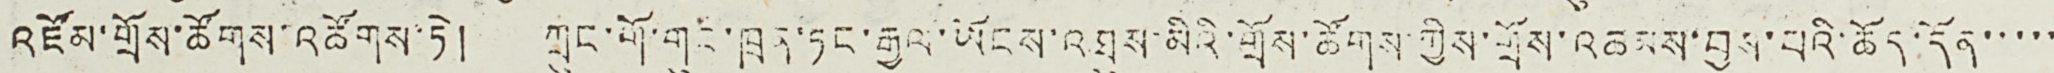འཛོམ་གྲོས་ཚོགས་འཚོགས་ཏེ། ཀྲུང་གོ་གུང་ཁྲན་ཏང་རྒྱལ་ཡོངས་འཐུས་མིའི་གྲོས་ཚོགས་ཀྱིས་གྲོས་འཆམས་བྱས་པའི་ཆོད་དོན་་་་་
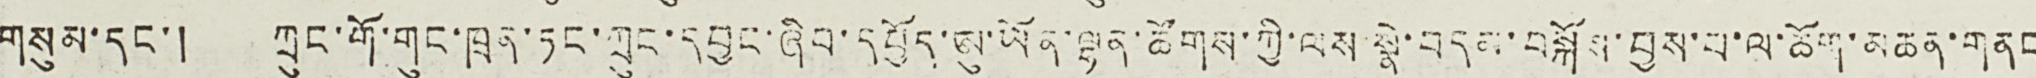གསུམ་དང་། ཀྲུང་གོ་གུང་ཁྲན་ཏང་ཀྲུང་དབྱང་ཞིབ་དཔྱོད་ཨུ་ཡོན་ལྷན་ཚོགས་ཀྱི་ལས་སྣེ་བདམ་བསྐོས་བྱས་པ་ལ་ཆོག་མཆན་གནང
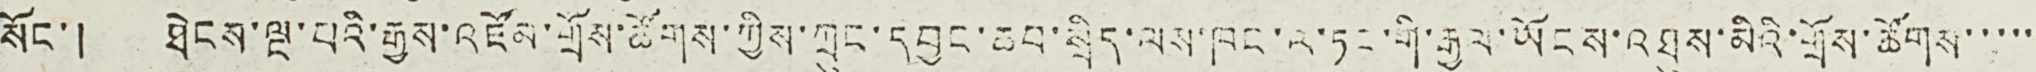སོང་། ཐེངས་ལྔ་པའི་རྒྱས་འཛོམ་གྲོས་ཚོགས་ཀྱིས་ཀྲུང་དབྱང་ཆབ་སྲིད་ལས་ཁང་ལ་ཏང་གི་རྒྱལ་ཡོངས་འཐུས་མིའི་གྲོས་ཚོགས་་་་་་
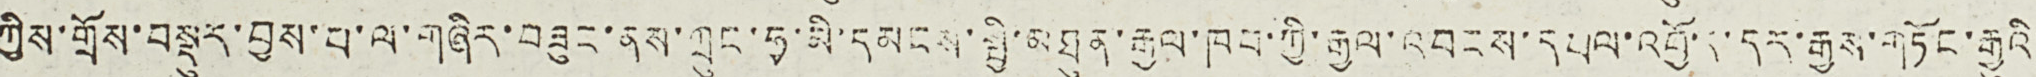ཀྱིས་གྲོས་བསྡུར་བྱས་པ་ལ་གཞིར་བཟུང་ནས་ཀྲུང་ཧྭ་མི་དམངས་སྤྱི་མཐུན་རྒྱལ་ཁབ་ཀྱི་རྒྱལ་འབངས་དཔལ་འབྱོར་དར་རྒྱས་གཏོང་རྒྱུའི་
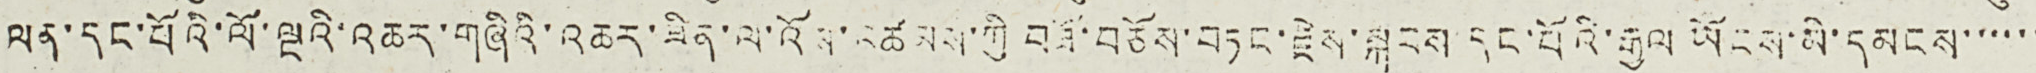ལན་དང་པོའི་ལོ་ལྔའི་འཆར་གཞིའི་འཆར་ཟིན་ལ་འོས་འཚམས་ཀྱི བཟོ་བཅོས་བཏང་རྗེས་སྐབས དང་པོའི་རྒྱལ ཡོངས་མི་དམངས་་་་་་
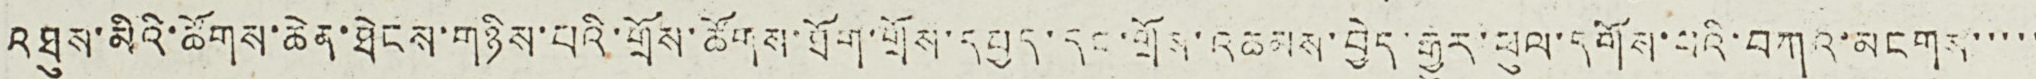འཐུས་མིའི་ཚོགས་ཆེན་ཐེངས་གཉིས་པའི་གྲོས་ཚོགས་ཐོག་གྲོས་དཔྱད་དང་གྲོས་འཆམས་བྱེད་རྒྱུར་ཕུལ་དགོས་པའི་བཀའ་མངགས་་་་་
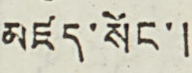མཛད་སོང་།
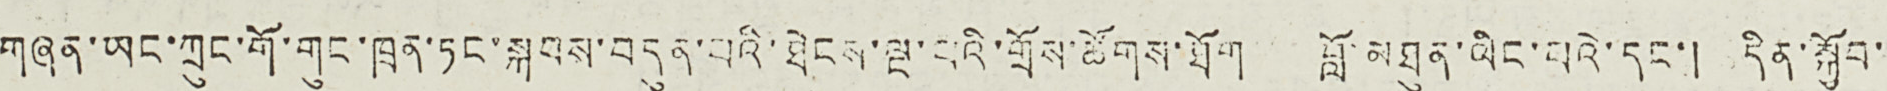གཞན་ཡང་ཀྲུང་གོ་གུང་ཁྲན་ཏང་སྐབས་བདུན་པའི་ཐེངས་ལྔ་པའི་གྲོས་ཚོགས་ཐོག བློ་མཐུན་ལིང་པའི་དང་། དིན་སྐྱོབ་་
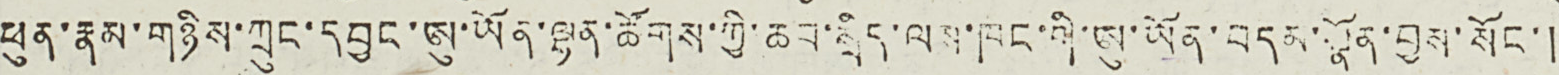ཕུན་རྣམ་གཉིས་ཀྲུང་དབྱང་ཨུ་ཡོན་ལྷན་ཚོགས་ཀྱི་ཆབ་སྲིད་ལས་ཁང་གི་ཨུ་ཡོན་བདམ་སྣོན་བྱས་སོང་།
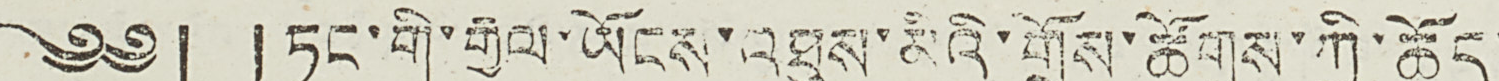༄༅། ། ཏང་གི་རྒྱལ་ཡོངས་འཐུས་མིའི་གྲོས་ཚོགས་ཀྱི་ཆོད་
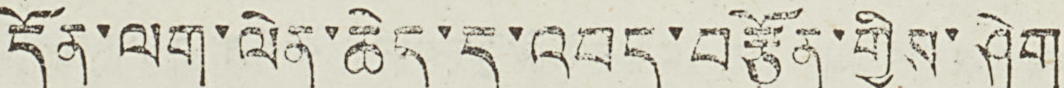དོན་ལག་ལེན་ཆེད་དུ་འབད་བརྩོན་གྱིས་ཤེག
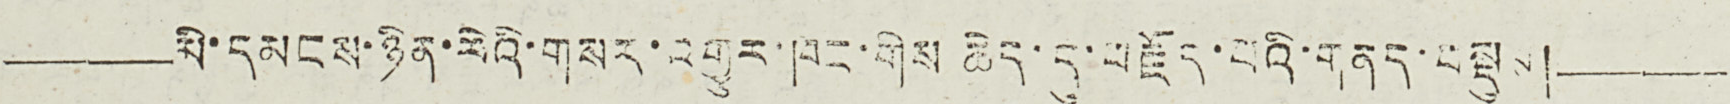——མི་དམངས་ཉིན་རེའི་གསར་འགྱུར་ཁང་གིས ཆེད་དུ་བརྗོད་པའི་གནད་བསྡུམ།——
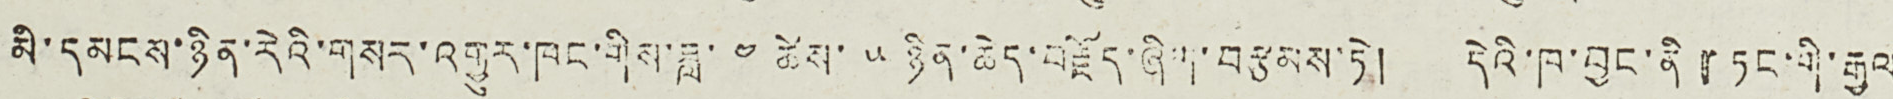མི་དམངས་ཉིན་རེའི་གསར་འགྱུར་ཁང་གིས་ཟླ་ ༤ ཚེས་ ༥ ཉིན་ཆེད་བརྗོད་ཞིག་བརྩམས་ཏེ། དེའི་ཁ་བྱང་ནི་『ཏང་གི་རྒྱལ་
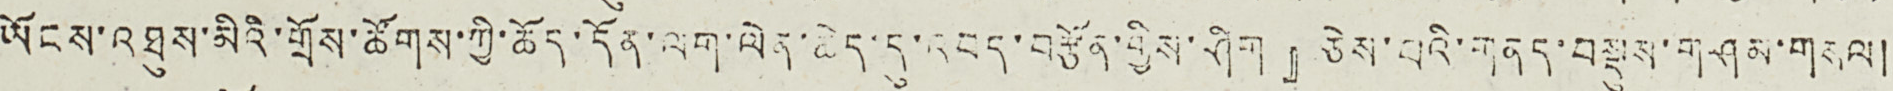ཡོངས་འཐུས་མིའི་གྲོས་ཚོགས་ཀྱི་ཆོད་དོན་ལག་ལེན་ཆེད་དུ་འབད་བརྩོན་གྱིས་ཤིག』ཅེས་པའི་གནད་བསྡུས་གཤམ་གསལ།
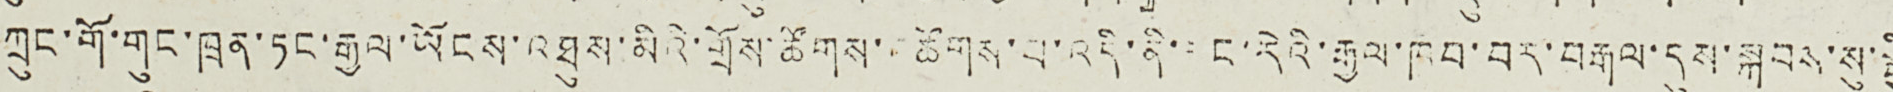ཀྲུང་གོ་གུང་ཁྲན་ཏང་རྒྱལ་ཡོངས་འཐུས་མིའི་གྲོས་ཚོགས་འཚོགས་པ་འདི་ནི་ ང་རེའི་རྒྱལ་ཁབ་བར་བརྒལ་དུས་སྐབས་སུ་སྤྱི
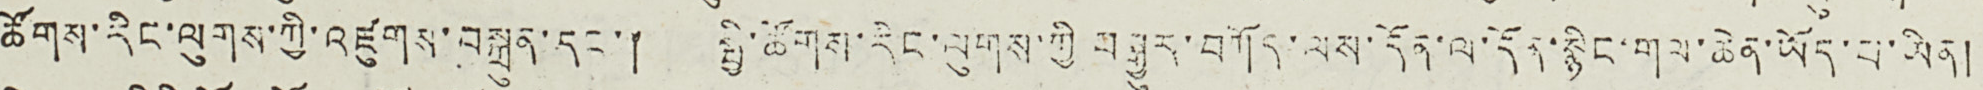ཚོགས་རིང་ལུགས་ཀྱི་འཛུགས་བསྐྲུན་དང་། སྤྱི་ཚོགས་རིང་ལུགས་ཀྱི བསྒྱུར་བཀོད་ལས་དོན་ལ་དོན་སྙིང་གལ་ཆེན་ཡོད་པ་ཡིན།
